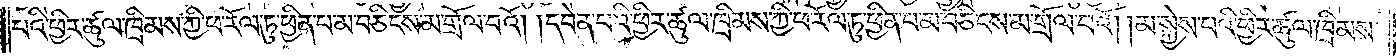པའི་ཕྱིར་ཚུལ་ཁྲིམས་ཀྱི་ཕ་རོལ་ཏུ་ཕྱིན་པ་མ་བཅིངས་མ་གྲོལ་བའོ། །དབེན་པའི་ཕྱིར་ཚུལ་ཁྲིམས་ཀྱི་ཕ་རོལ་རུ་ཕྱིན་པ་མ་བཅིངས་མ་གྲོལ་བའོ། །མ་སྐྱེས་པའི་ཕྱིར་ཚུལ་ཁྲིམས་
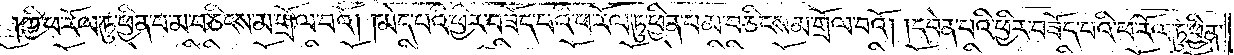ཀྱི་ཕ་རོལ་ཏུ་ཕྱིན་པ་མ་བཅིངས་མ་གྲོལ་བའོ། །མེད་པའི་ཕྱིར་བཟོད་པའི་ཕ་རོལ་ཏུ་ཕྱིན་པ་མ་བཅིངས་མ་གྲོལ་བའོ། །དབེན་པའི་ཕྱིར་བཟོད་པའི་ཕ་རོལ་ཏུ་ཕྱིན་
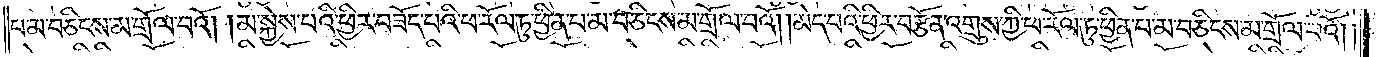པ་མ་བཅིངས་མ་གྲོལ་བའོ། །མ་སྐྱེས་པའི་ཕྱིར་བཟོད་པའི་ཕ་རོལ་ཏུ་ཕྱིན་པ་མ་བཅིངས་མ་གྲོལ་བའོ། །མེད་པའི་ཕྱིར་བརྩོན་འགྲུས་ཀྱི་ཕ་རོལ་ཏུ་ཕྱིན་པ་མ་བཅིངས་མ་གྲོལ་བའོ། །
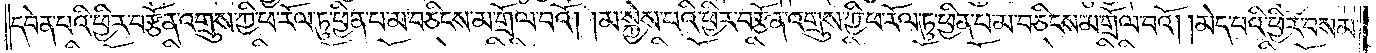དབེན་པའི་ཕྱིར་བརྩོན་འགྲུས་ཀྱི་ཕ་རོལ་ཏུ་ཕྱིན་པ་མ་བཅིངས་མ་གྲོལ་བའོ། །མ་སྐྱེས་པའི་ཕྱིར་བརྩོན་འགྲུས་ཀྱི་ཕ་རོལ་ཏུ་ཕྱིན་པ་མ་བཅིངས་མ་གྲོལ་བའོ། །མེད་པའི་ཕྱིར་བསམ་
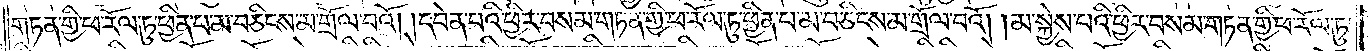གཏན་གྱི་ཕ་རོལ་ཏུ་ཕྱིན་པ་མ་བཅིངས་མ་གྲོལ་བའོ། །དབེན་པའི་ཕྱིར་བསམ་གཏན་གྱི་ཕ་རོལ་ཏུ་ཕྱིན་པ་མ་བཅིངས་མ་གྲོལ་བའོ། །མ་སྐྱེས་པའི་ཕྱིར་བསམ་གཏན་གྱི་ཕ་རོལ་ཏུ་
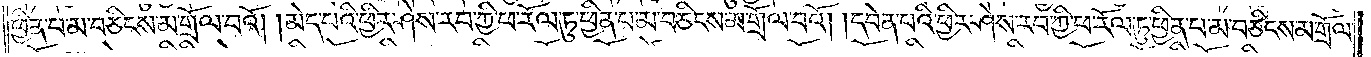ཕྱིན་པ་མ་བཅིངས་མ་གྲོལ་བའོ། །མེད་པའི་ཕྱིར་ཤེས་རབ་ཀྱི་ཕ་རོལ་ཏུ་ཕྱིན་པ་མ་བཅིངས་མ་གྲོལ་བའོ། །དབེན་པའི་ཕྱིར་ཤེས་རབ་ཀྱི་ཕ་རོལ་ཏུ་ཕྱིན་པ་མ་བཅིངས་མ་གྲོལ་
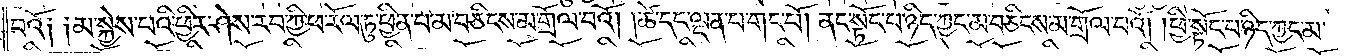བའོ༑ ༑མ་སྐྱེས་པའི་ཕྱིར་ཤེས་རབ་ཀྱི་ཕ་རོལ་ཏུ་ཕྱིན་པ་མ་བཅིངས་མ་གྲོལ་བའོ། །ཚེ་དང་ལྡན་པ་གང་པོ། ནང་སྟོང་པ་ཉིད་ཀྱང་མ་བཅིངས་མ་གྲོལ་བའོ། །ཕྱི་སྟོང་པ་ཉིད་ཀྱང་མ་
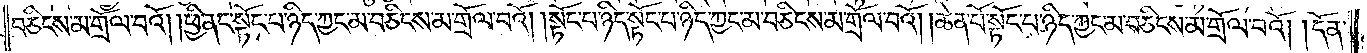བཅིངས་མ་གྲོལ་བའོ། །ཕྱི་ནང་སྟོང་པ་ཉིད་ཀྱང་མ་བཅིངས་མ་གྲོལ་བའོ། །སྟོང་པ་ཉིད་སྟོང་པ་ཉིད་ཀྱང་མ་བཅིངས་མ་གྲོལ་བའོ། །ཆེན་པོ་སྟོང་པ་ཉིད་ཀྱང་མ་བཅིངས་མ་གྲོལ་བའོ། །དོན་
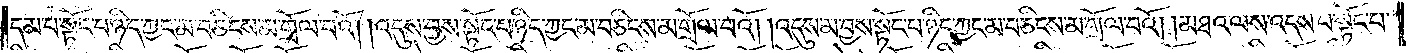དམ་པ་སྟོང་པ་ཉིད་ཀྱང་མ་བཅིངས་མ་གྲོལ་བའོ། །འདུས་བྱས་སྟོང་པ་ཉིད་ཀྱང་མ་བཅིངས་མ་གྲོལ་བའོ། །འདུས་མ་བྱས་སྟོང་པ་ཉིད་ཀྱང་མ་བཅིངས་མ་གྲོལ་བའོ། །མཐའ་ལས་འདས་པ་སྟོང་པ་
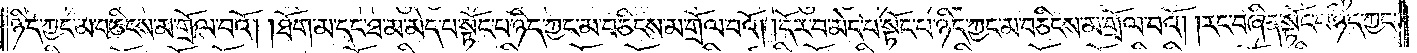ཉིད་ཀྱང་མ་བཅིངས་མ་གྲོལ་བའོ། །ཐོག་མ་དང་ཐ་མ་མེད་པ་སྟོང་པ་ཉིད་ཀྱང་མ་བཅིངས་མ་གྲོལ་བའོ། །དོར་བ་མེད་པ་སྟོང་པ་ཉིད་ཀྱང་མ་བཅིངས་མ་གྲོལ་བའོ། །རང་བཞིན་སྟོང་པ་ཉིད་ཀྱང་
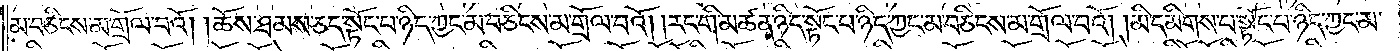མ་བཅིངས་མ་གྲོལ་བའོ། །ཆོས་ཐམས་ཅད་སྟོང་པ་ཉིད་ཀྱང་མ་བཅིངས་མ་གྲོལ་བའོ། །རང་གི་མཚན་ཉིད་སྟོང་བ་ཉིད་ཀྱང་མ་བཅིངས་མ་གྲོལ་བའོ། །མི་དམིགས་པ་སྟོང་པ་ཉིད་ཀྱང་མ་
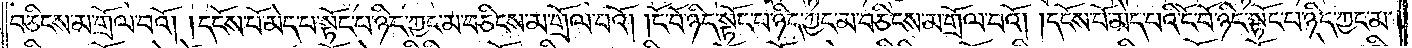བཅིངས་མ་གྲོལ་བའོ། །དངོས་པོ་མེད་པ་སྟོང་པ་ཉིད་ཀྱང་མ་བཅིངས་མ་གྲོལ་བའོ། །ངོ་བོ་ཉིད་སྟོང་པ་ཉིད་ཀྱང་མ་བཅིངས་མ་གྲོལ་བའོ། །དངོས་པོ་མེད་པའི་ངོ་བོ་ཉིད་སྟོང་པ་ཉིད་ཀྱང་མ་
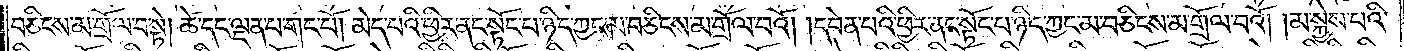བཅིངས་མ་གྲོལ་བ་སྟེ། ཚེ་དང་ལྡན་པ་གང་པོ། མེད་པའི་ཕྱིར་ནང་སྟོང་པ་ཉིད་ཀྱང་མ་བཅིངས་མ་གྲོལ་བའོ། །དབེན་པའི་ཕྱིར་ནང་སྟོང་པ་ཉིད་ཀྱང་མ་བཅིངས་མ་གྲོལ་བའོ། །མ་སྐྱེས་པའི་
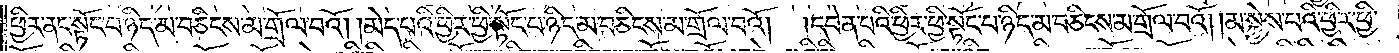ཕྱིར་ནང་སྟོང་པ་ཉིད་མ་བཅིངས་མ་གྲོལ་བའོ། །མེད་པའི་ཕྱིར་ཕྱི་སྟོང་པ་ཉིད་མ་བཅིངས་མ་གྲོལ་བའོ། །དབེན་པའི་ཕྱིར་ཕྱི་སྟོང་པ་ཉིད་མ་བཅིངས་མ་གྲོལ་བའོ། །མ་སྐྱེས་པའི་ཕྱིར་ཕྱི་
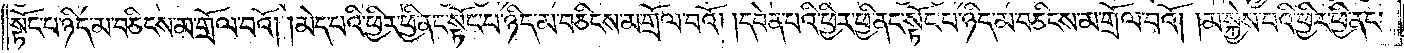སྟོང་པ་ཉིད་མ་བཅིངས་མ་གྲོལ་བའོ། །མེད་པའི་ཕྱིར་ཕྱི་ནང་སྟོང་པ་ཉིད་མ་བཅིངས་མ་གྲོལ་བའོ། །དབེན་པའི་ཕྱིར་ཕྱི་ནང་སྟོང་པ་ཉིད་མ་བཅིངས་མ་གྲོལ་བའོ། །མ་སྐྱེས་པའི་ཕྱིར་ཕྱི་ནང་
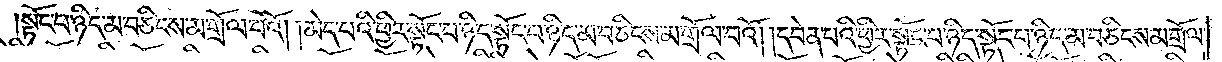སྟོང་པ་ཉིད་མ་བཅིངས་མ་གྲོལ་བའོ། །མེད་པའི་ཕྱིར་སྟོང་པ་ཉིད་སྟོང་པ་ཉིད་མ་བཅིངས་མ་གྲོལ་བའོ། །དབེན་པའི་ཕྱིར་སྟོང་པ་ཉིད་སྟོང་པ་ཉིད་མ་བཅིངས་མ་གྲོལ་
